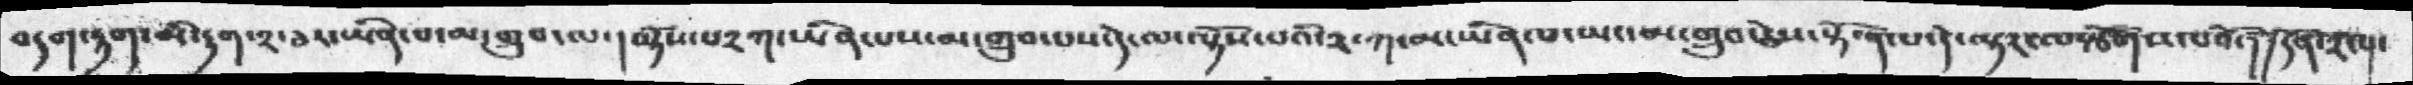བདག་རྟག་མི་རྟག་༢་ཅར་ཡིན་པ་མ་གྲུབ་ལ་། ལྟོས་པ༢ཀ་ཡིན་པས་མ་གྲུབ་པས་དེ་ལ་ལྟོས་པའི་༢་ཀ་མ་ཡིན་པ་ཡང་མ་གྲུབ་ཅེས་སྟོན་པ་དེ་ལྟར་ལསྩོགས་པའོ་། །དོན་༢ལ་
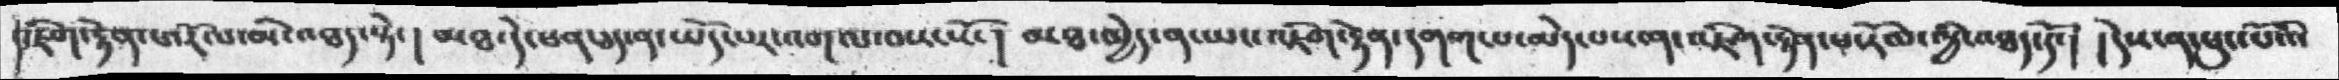འཇིག་རྟེན་ཕ་རོལ་མི་འཐད་སྟེ་། མཐ་དེ་ཕན་ཅད་ན་ཡོད་པར་འགལ་བས་སོ་། མཐ་མྱེད་ན་ཡང་འཇིག་རྟེན་དགག་པ་མེད་ལས་ན་འཇིག་རྟེན་ཕ་རོལ་མྱི་འཐད་དོ་། །དེས་ན་ཕུང་པོའི་
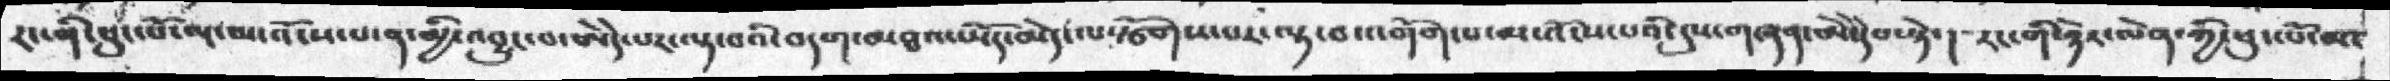རང་གི་ཕུང་པོ་ལྔ་མ་འོངས་པ་ན་མྱི་འབྱུང་བ་ཨེདེ་པར་ལྟ་བའི་བདག་མཐའ་ཡོད་མེད་ལསྩོགས་པར་ལྟ་བ་འགོག་པ་མ་འོངས་པའི་དུས་གཞན་ཨེ་དེ་པ་སྟེ་། རང་གི་ཉེར་ལེན་ཀྱི་ཕུང་པོ་མ་
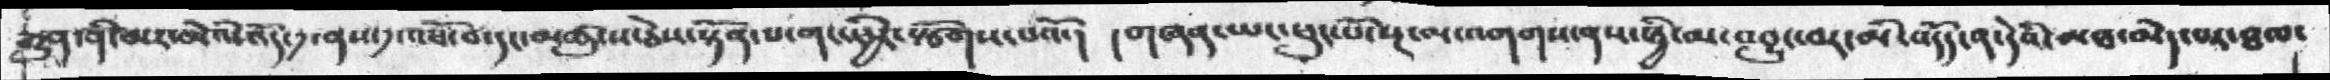རྒྱུན་ནི་མར་མེའི་འོད་༡་ནས་༡་འཐོ་བ་དང་མཚུངས་ཅེས་སྟོན་པ་གང་ཕྱིར་སྩོགས་པའོ་། །གཞན་ཡང་ཕུང་པོ་སྔ་མ་འགགས་ནས་ཕྱི་མ་འབྱུང་བར་མི་འདོད་ན་དེའི་མཐ་མེད་པར་ཐལ་
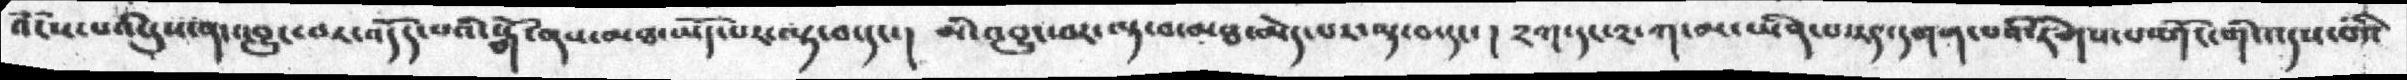འོངས་པའི་དུས་ན་འབྱུང་བར་འདོད་པའི་སྒོ་ནས་མཐ་ཡོད་པར་ལྟ་བ་དང་། མི་འབྱུང་བར་ལྟ་བ་མཐ་མེད་པར་ལྟ་བ་དང་། ༢ཀ་དང་༢་ཀ་མ་ཡིན་པས༩་དགག་པའི་རིགས་པ་གོང་གི་འདས་པའི
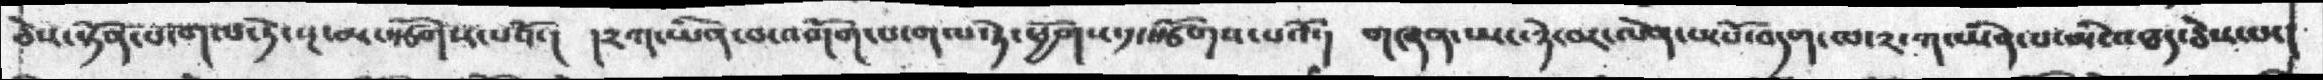ཅེས་སྟོན་པ་གལ་ཏེ་སྔ་མ་སྩོགས་པའོ་། །༢ཀ་ཡིན་བ་འགོག་པ་གལ་ཏེ་ཕྱོགས་༡་སྩོགས་པའོ་། གཞན་ཡང་ཉེ་བར་ལེན་པ་པོ་བདག་ལ་༢་ཀ་ཡིན་པ་མི་འཐད་ཅེས་པ་
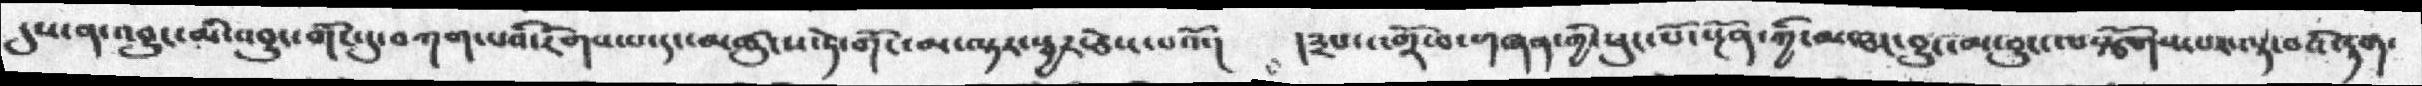དུས་ན་འབྱུང་མི་འབྱུང་གོང་དུ་བཀག་པའི་རིགས་པ་དང་མཚུངས་ཏེ་གོང་མ་ལྟར་སྦྱར་ཅེས་པའོ་། །༣པ་འགྲོ་བ་གཞན་གྱི་ཕུང་པོ་སྔོན་ཀྱི་མ་ཐར་བྱུང་མ་བྱུང་ལསྩོགས་པར་ལྟ་བའི་རྟག་
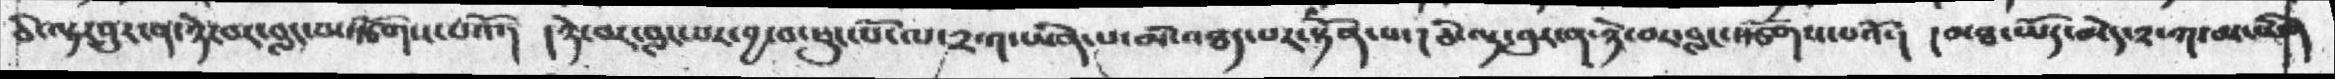ཅི་ལྟ་བུར་ན་ཉེར་བར་བླང་ལསྩོགས་པའོ་། །ཉེ་བར་བླང་པར་བྱ་བ་ཕུང་པོ་ལ་༢ཀ་ཡིན་པ་མི་འཐད་པར་སྟོན་པ་། ཅི་ལྟ་བུར་ན་ཉེ་བར་བླང་སྩོགས་པའོ་། མཐ་ཡོད་མེད་༢་ཀ་མ་ཡིན
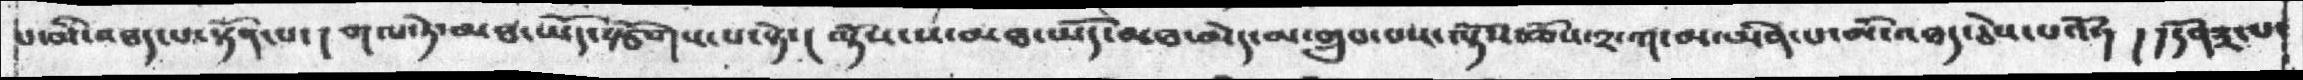པ་མི་འཐད་པ་སྟོན་པ་། གལ་ཏེ་མཐ་ཡོད་སྩོགས་པ་སྟེ་། ལྟོས་ས་མཐ་ཡོད་མཐ་མེད་མ་གྲུབ་པས་ལྟོས་ཆོས་༢་ཀ་མ་ཡིན་པ་མི་འཐད་ཅེས་པའོ་། །དོན༣་པ་
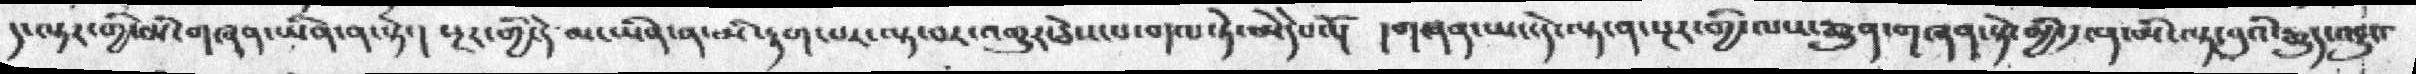ད་ལྟར་གྱི་མི་གཞན་ཡིན་ན་སྟེ་། སྔར་གྱི་དེ་མ་ཡིན་ན་མི་རྟག་པར་ལྟ་བར་འགྱུར་ཅེས་པ་གལ་ཏེ་ཨེདེཔའོ་། །གཞན་ཡང་དེ་ལྟ་ན་སྔར་གྱི་ལས་རྒྱུན་གཞན་སྟེ་མྱི་༡་ན་མི་ལྟ་བུའི་རྒྱུད་འབྱུང་
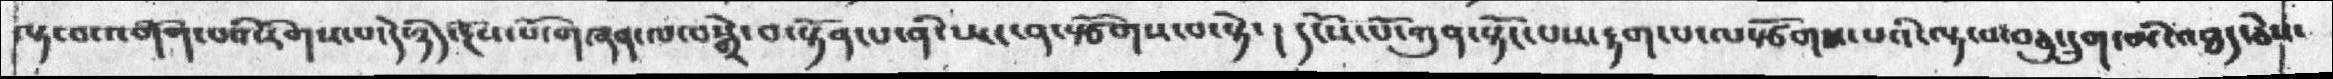ལྟ་བ་འགོག་པའི་རིགས་པ་དེ་ཉིད་རྔོས་པོ་གཞན་ལ་བསྒྲེ་བ་སྟོན་པ་ནི་ཡང་ན་སྩོགས་པ་སྟེ་། དངོས་པོ་ཀུན་སྟོང་པས་རྟག་པ་ལསྩོགས་པའི་ལྟ་བ་བཅུ་དྲུག་མི་འཐད་ཅེས་
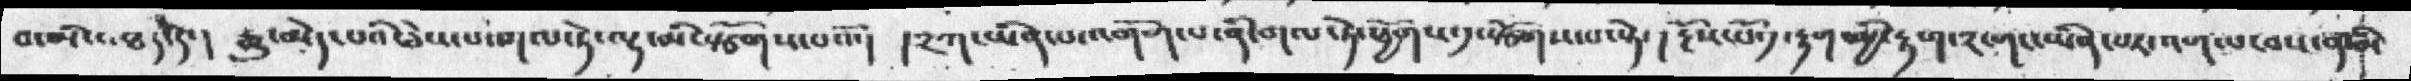བ་མི་འཐད་དེ་། རྒྱུ་མེད་པའི་ཅེས་པ་གལ་ཏེ་ལྷ་མི་སྩོགས་པའོ་། ༢ཀ་ཡིན་པ་འགོག་པ་ནི་གལ་ཏེ་ཕྱོགས་༡་སྩོགས་པ་སྟེ་། རྔོས་པོ་༡་རྟག་མྱི་རྟག་༢་གང་ཡིན་པར་འགལ་བས་ན་མི
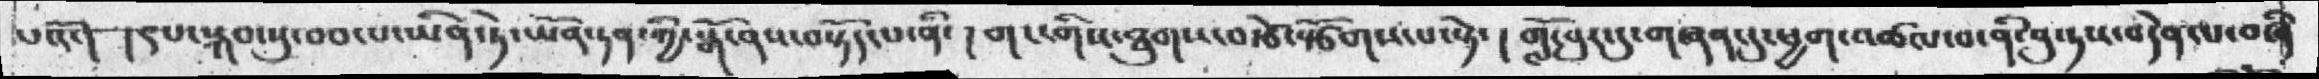པའོ་། །༩པ་སྐབ་སུ་བབ་པ་ཡིན་ཏེ་ཡོན་ཏན་ཀྱི་སྒོ་ནས་བསྟོད་པ་ནི་། གང་གིས་ཐུགས་བརྩེ་སྩོགས་པ་སྟེ་། གློ་བུར་དུ་གཞན་དུ་ཕྱག་འཚལ་བ་ནི་བུ་ཏས་བདེན་པ་བཞི
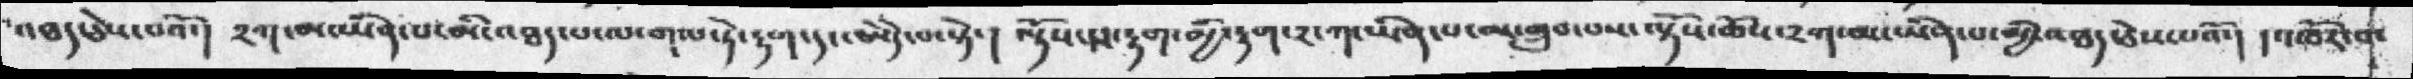འཐད་ཅེས་པའོ་། ༢ཀ་མ་ཡིན་པ་མི་འཐད་པ་ལ་གལ་ཏེ་རྟག་དང་ཨེདེ་པ་སྟེ་། ལྟོས་པ་རྟག་མྱི་རྟག་༢་ཀ་ཡིན་པ་མ་གྲུབ་པས་ལྟོས་ཆོས་༢ག་མ་ཡིན་པ་མྱི་འཐད་ཅེས་པའོ་། །འཁོར་བ་
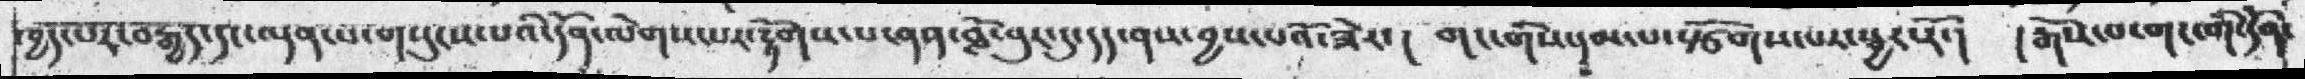ཁྱད་པར་བརྒྱད་དང་ལྡན་པ་གསུངས་པའི་དོན་ལེགས་པར་རྟོགས་པ་ནན་བློ་བུར་དུ་དད་ནས་བྱས་པའོ་ཟེར་། གང་གིས་དམ་པ་སྩོགས་པར་སྦྱར་རོ་། །རྒོས་པ་གང་གི་དོན་
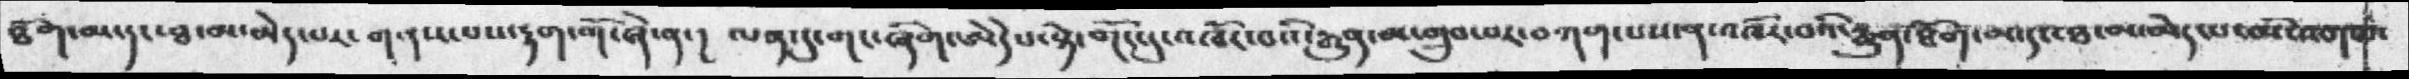ཐོག་མ་དང་ཐ་མ་མེད་པར་གནས་པས་རྟག་གོ་ཞེ་ན་། ལན་དུ་གང་ཞིག་ཨེདེཔ་སྟེ་གོང་དུ་འཁོར་བའི་རྒྱུན་མ་གྲུབ་བར་བཀག་པས་ན་འཁོར་བའི་རྒྱུན་ཐོག་མ་དང་ཐ་མ་མེད་པ་མི་འགལ་
